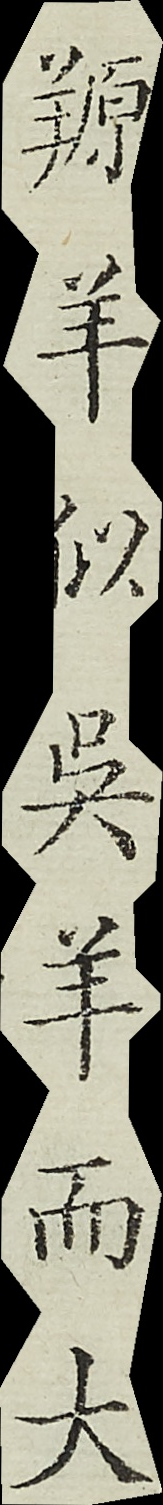原羊似吳羊而大
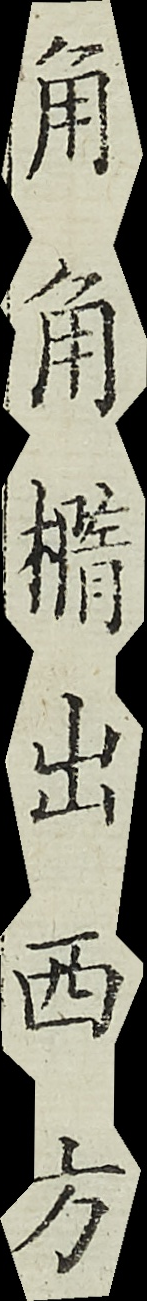角角橢出西方
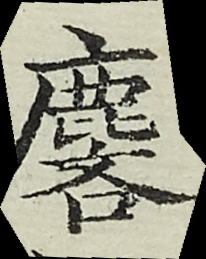麐
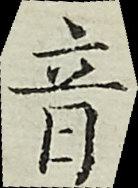音
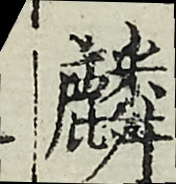鄰
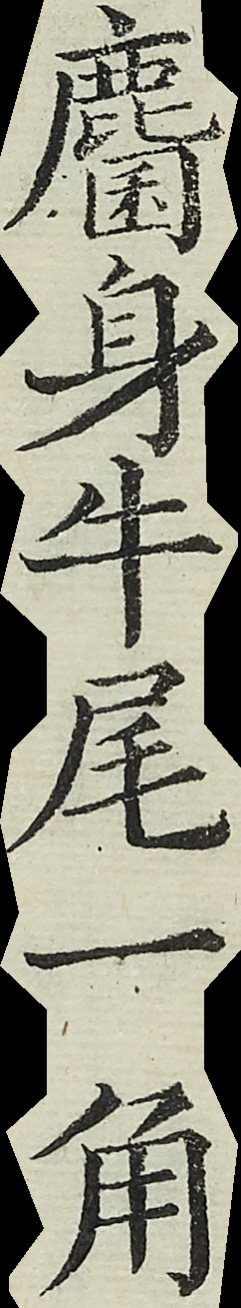麕身牛尾一角
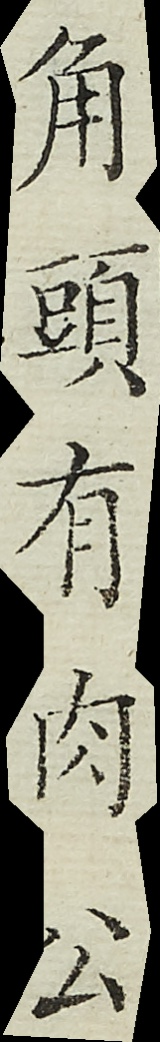角頭有肉公
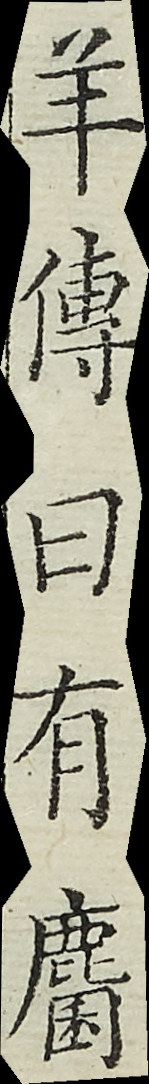羊傳曰有麕
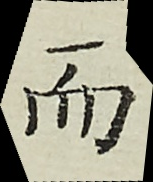而
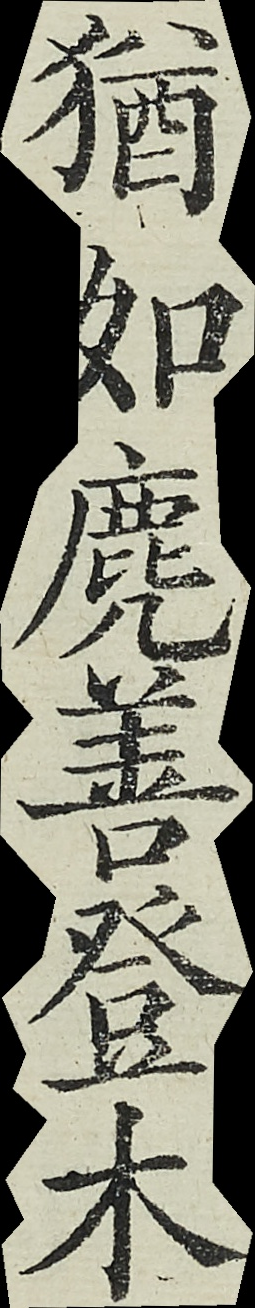猶如麂善登木
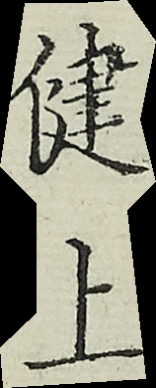健上
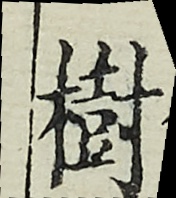樹
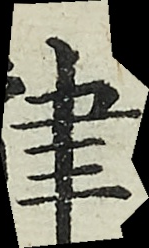貄
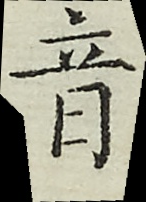音
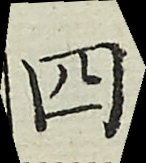四
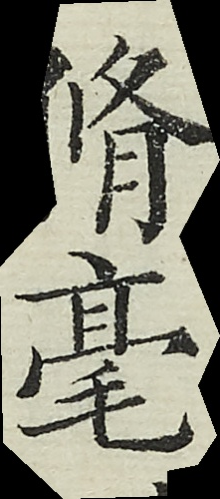脩毫
